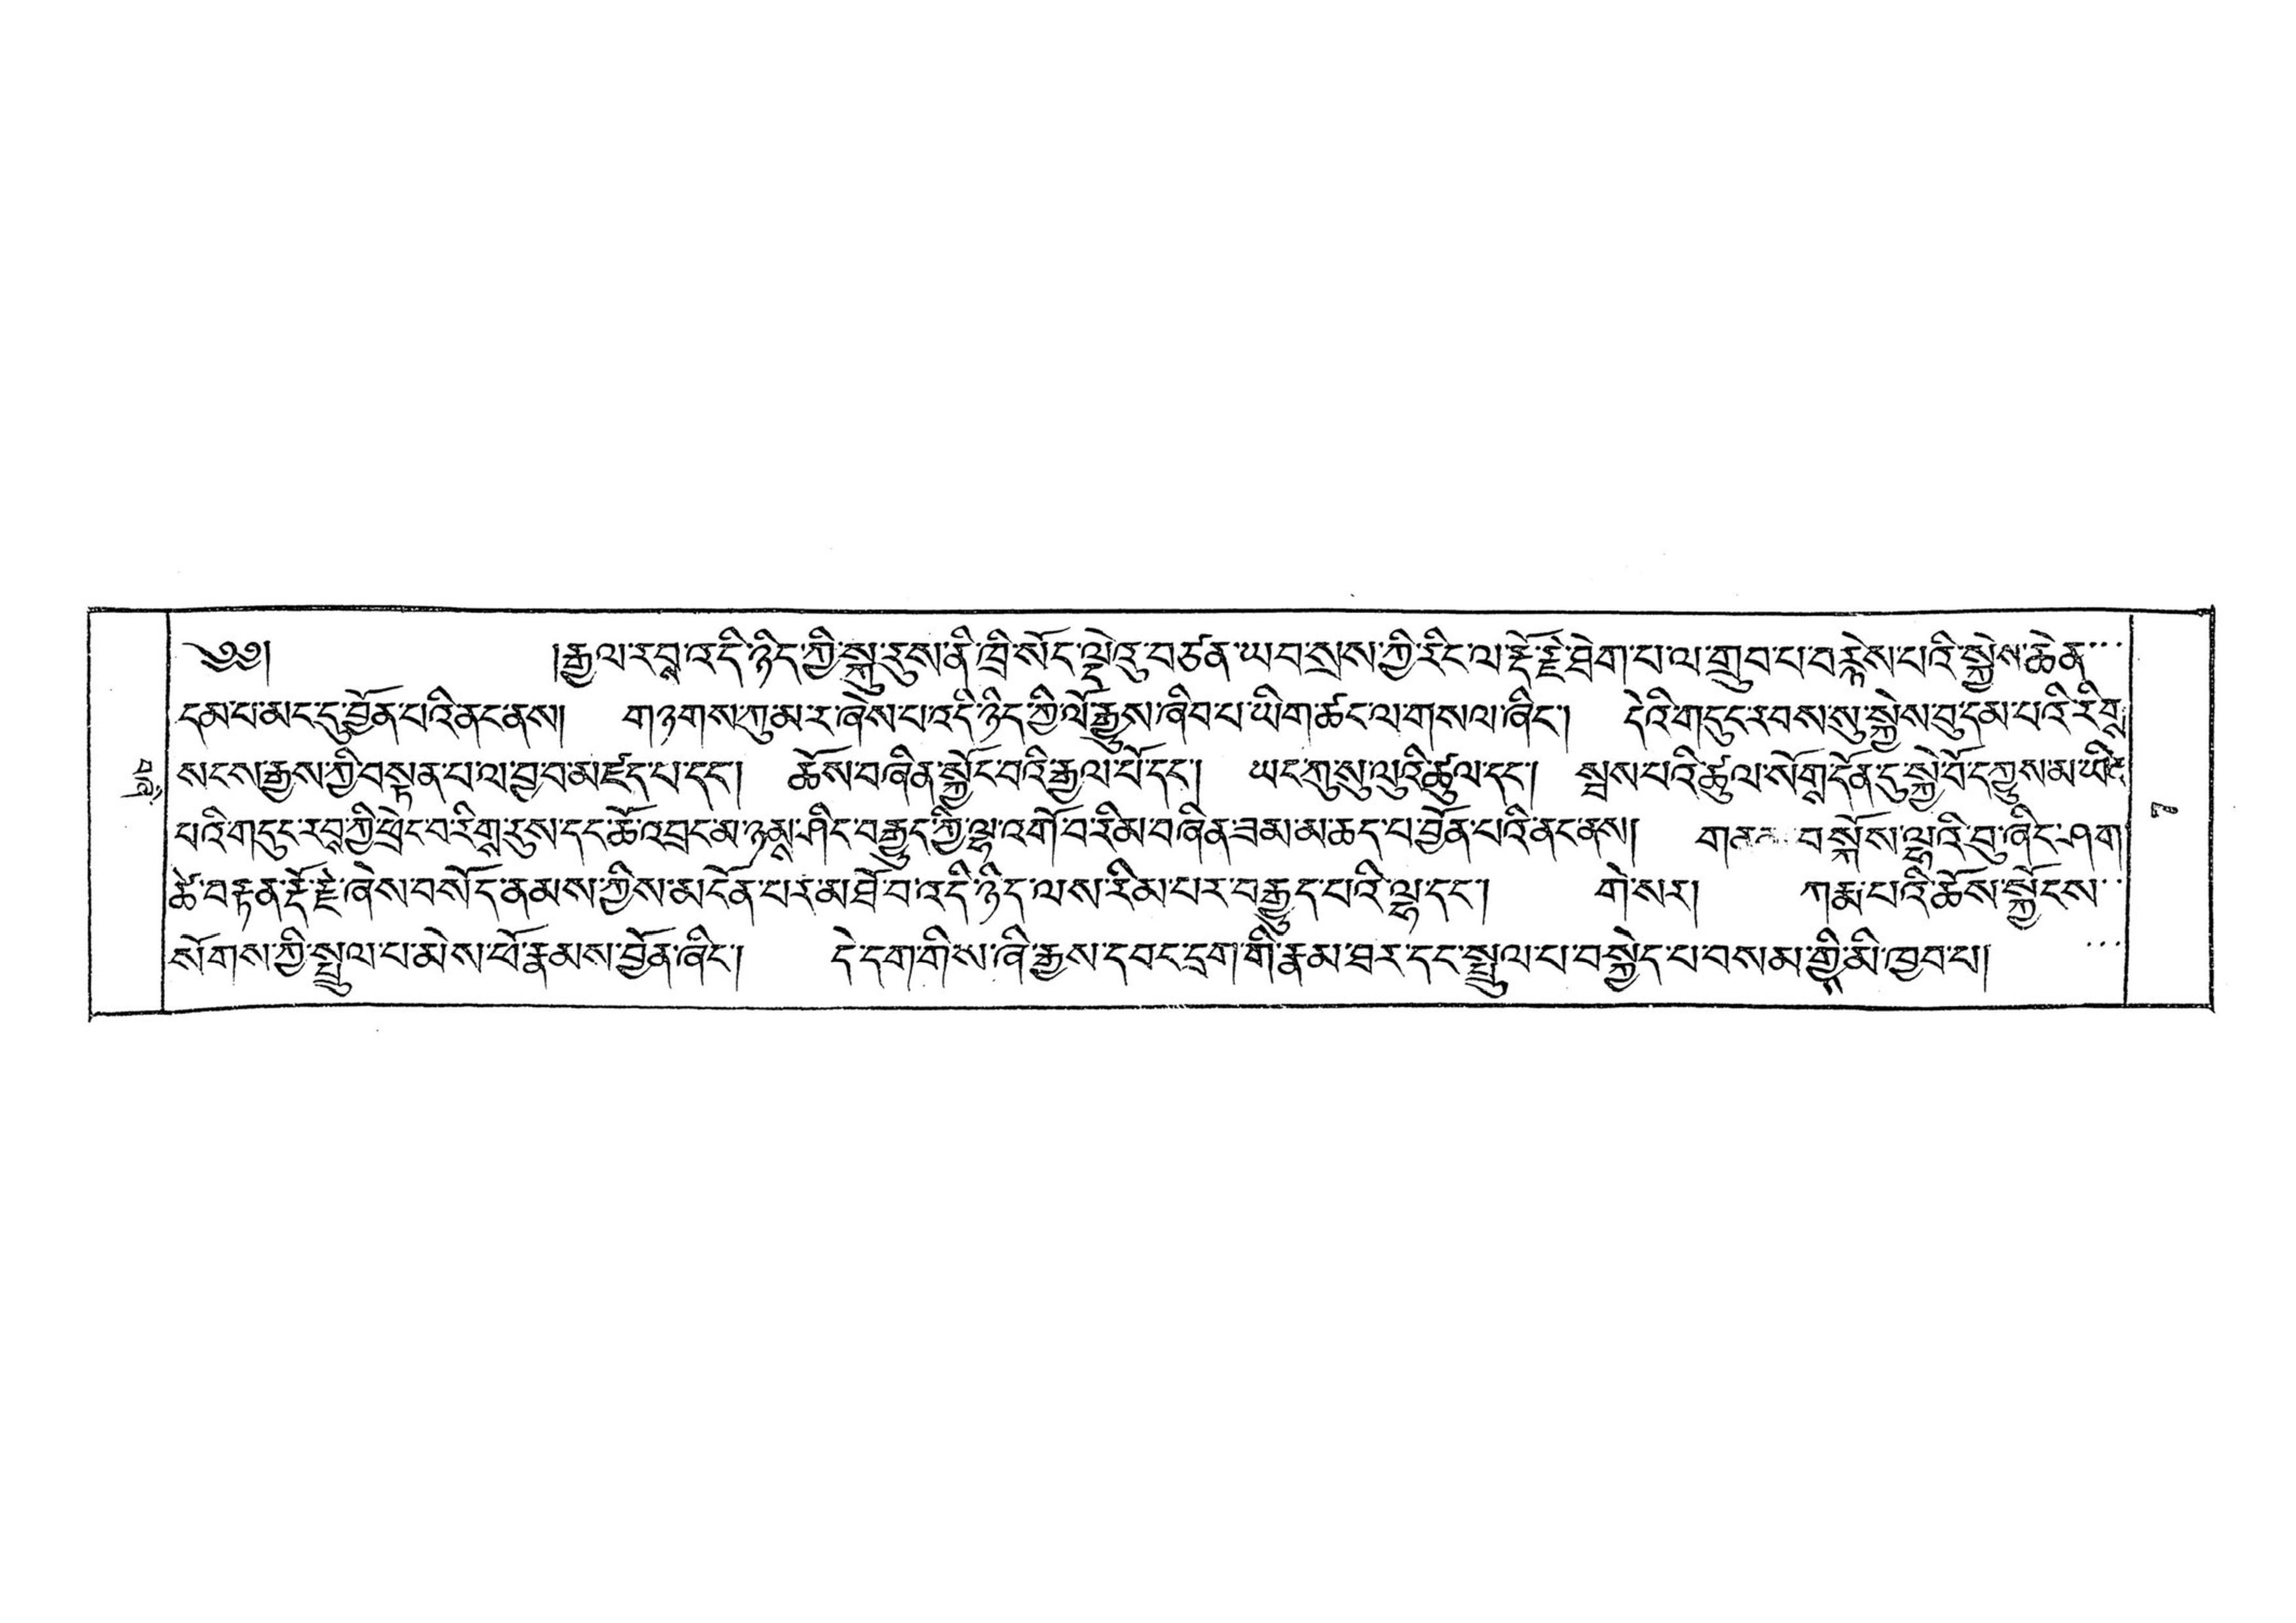བཞི་
༄༅།  །རྒྱལ་རབས་འདི་ནི་སྐུ་རུས་ནི་ཁྲི་སོང་ལྡེའུ་བཙན་ཡབ་སས་ཀྱི་རིང་ལ་རྡོ་རྗེ་ཐེག་པ་ལ་གྲུབ་པ་བརྙེས་པའི་སྐྱེས་ཆེན་་་
དམ་པ་མང་དུ་བྱོན་པའི་ནང་ནས། གཉགས་ཀུ་མར་ཞེས་པའདི་ཉིད་གྱི་ལོ་རྒྱུས་ཞིབ་པ་ཡིག་ཚང་ལ་གསལ་ཞིང་། དེའི་གདུང་རབས་སུ་སྐྱེས་བུ་དམ་པའི་རིགས་
སངས་རྒྱས་ཀྱི་བསྟན་པ་ལ་བྱ་བ་མཛད་པ་དང་། ཆོས་བཞིན་སྐྱོང་བའི་རྒྱལ་པོདང་། ཡང་ཀུ་སུ་ལུའི་ཚུལ་དང་། སྦས་པའི་ཚུལ་སོགས་དོན་དུ་སྐྱེ་བོ་དཀྱུས་མ་ཡིན་
པའི་གདུང་རབས་ཀྱི་ཕྲིང་བ་རིགས་རུས་དང་ཆོ་འབྲང་མ་ཉམས་ཤིང་བརྒྱུད་ཀྱི་ལྷ་འགོ་བ་རིམ་བཞིན་ཟམ་མ་ཆད་པ་བྱོན་པའི་ནང་ནས། གནན་བསྐོས་ལྷའི་བུ་ཞིང་ཤག་
ཚེ་བརྟན་རྡོ་རྗེ་ཞེས་བསོད་ནམས་ཀྱིས་མངོན་པར་མཐོ་བ་འདི་ཉིད་ལས་རིམ་པར་བརྒྱུད་པའི་ལྷ་དང་། གེ་སར། ཀརྨ་པའི་ཆོས་སྐྱོངས་་
སོགས་ཀྱི་སྤྲུལ་པ་མེས་ཕོ་རྣམས་བྱོན་ཞིང་། དེ་དག་གིས་ཞི་རྒྱས་དབང་དྲག་གི་རྣམ་ཐར་དང་སྤྲུལ་པ་བསྐྱེད་པ་བསམ་གྱིས་མི་ཁྱབ་པ། ་་་
